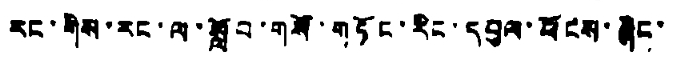རང་གིས་རང་ལ་སློབ་གསོ་གཏོང་རིང་དབུལ་ཕོངས་ཞིང་
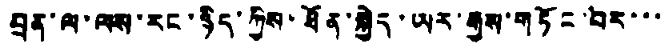བྲན་ལ་ལས་རང་ཉིད་ཀྱིས་ཐོན་སྐྱེད་ཡར་རྒྱས་གཏོང་བར་་་
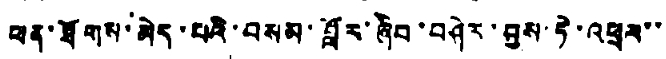ཕན་ཐོགས་མེད་པའི་བསམ་བློར་ཞིབ་བཤེར་བྱས་ཏེ་འཕྲལ་་
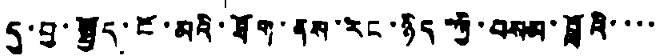དུ་བྱ་སྤྱོད་ངོ་མའི་ཐོག་ནས་རང་ཉིད་ཀྱི་བསམ་བློའི་་་་
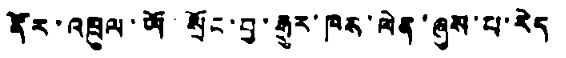ནོར་འཁྲུལ་ཡོ་སྲོང་བྱ་རྒྱུར་ཁས་ལེན་ཞུས་པ་རེད
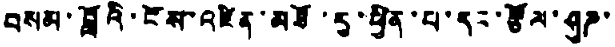བསམ་བློའི་ངོས་འཛིན་མཐོ་རུ་ཕྱིན་པ་དང་རྩོལ་ཤུཌ་
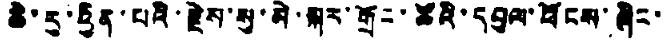ཆེ་རུ་ཕྱིན་པའི་རྗེས་སུ་མེ་སྐར་གྲོང་ཚོའི་དབུལ་ཕོངས་ཞིང་
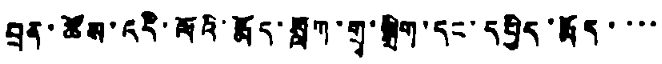བྲན་ཚོས་འདི་ལོའི་རྨོད་སློག་གྲྭ་སྒྲིག་དང་དཔྱིད་རྨོད་་་་
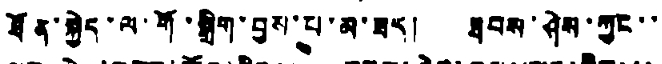ཐོན་སྐྱེད་ལ་གོ་སྒྲིག་བྱས་པ་མ་ཟད། ཐབས་ཤེས་ཀྱང་་
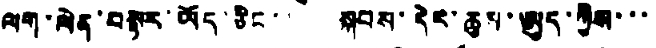ལག་ལེན་བསྟར་ཡོད་ཅིང་། སྐབས་དེར་ཆུས་ཨུད་ཀྱིས་་་
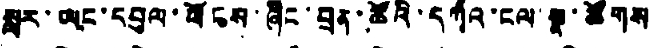སླར་ཡང་དབུལ་ཕོངས་ཞིང་བྲན་ཚོའི་དཀའ་ངལ་སྣ་ཚོགས
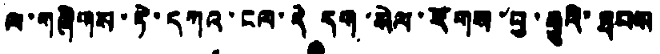ལ་གཞིགས་ཏེ་དཀའ་ངལ་དེ དག་སེལ་རོགས་བྱ་རྒྱུའི་ཐབས
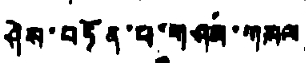ཤེས་བཏོན་པ་གཤམ་གསལ
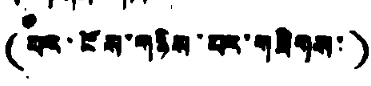(བར་ངོས་གཉིས་པར་གཟིགས་)
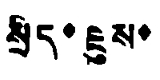སྲིད་ཇུས་
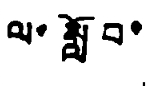ལ་སློབ་
